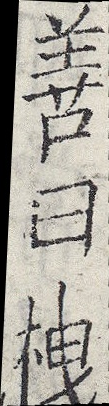善曰栧
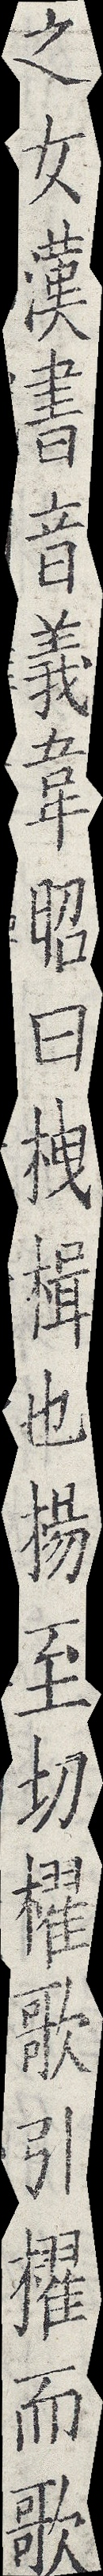之女漢書音義韋昭曰栧楫也楊至切櫂歌引櫂而歌
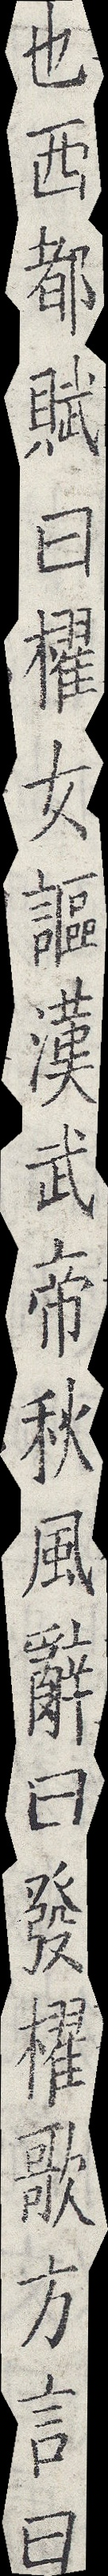也西都賦曰櫂女謳漢武帝秋風辭曰發櫂歌方言曰
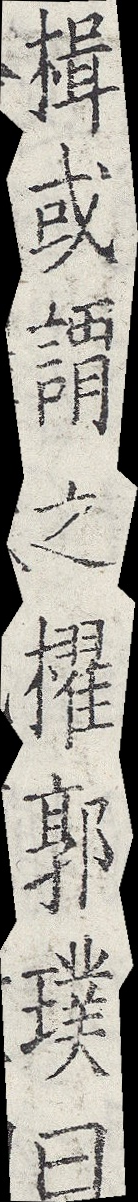楫或謂之櫂郭璞曰
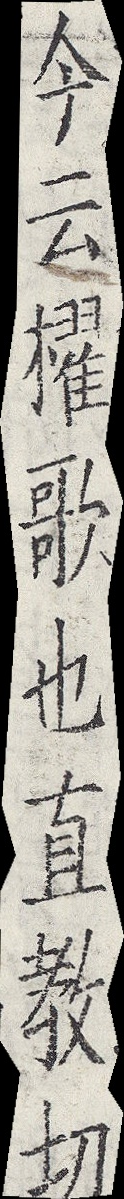今云櫂歌也直教切
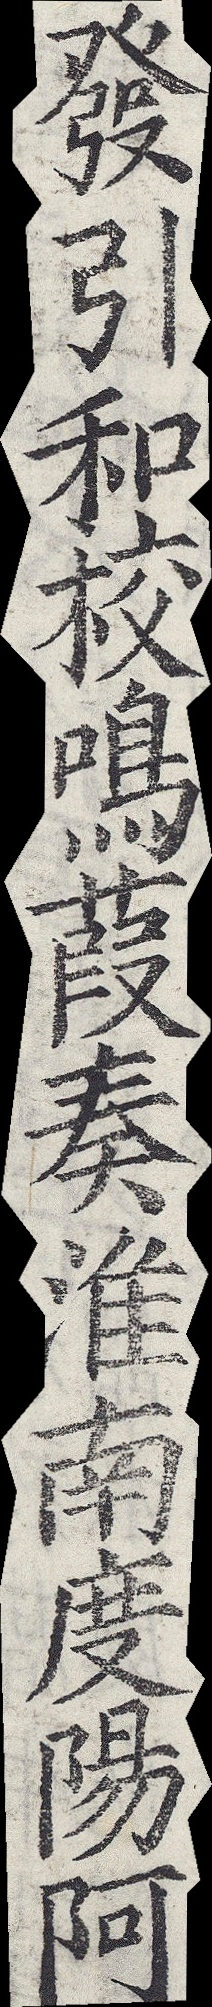發引和校鳴葭奏淮南度陽阿
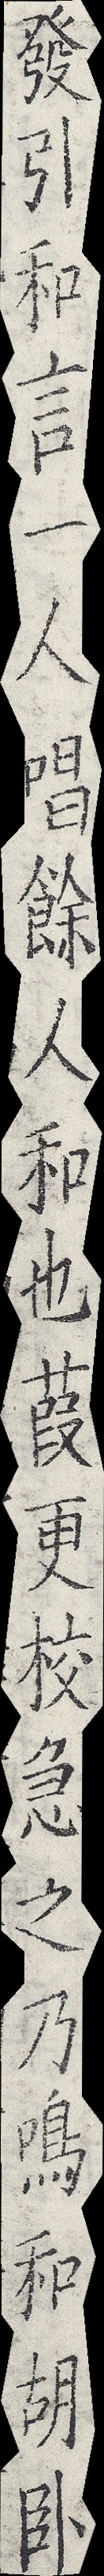發引和言一人唱餘人和也葭更校急之乃鳴和胡臥
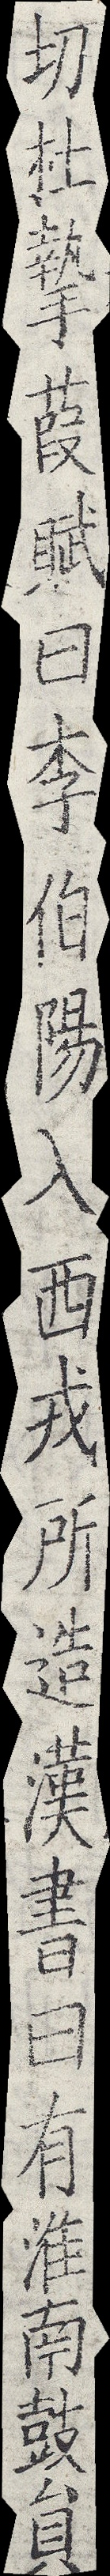切杜摯葭賦曰李伯陽入西戎所造漢書曰有淮南鼓員
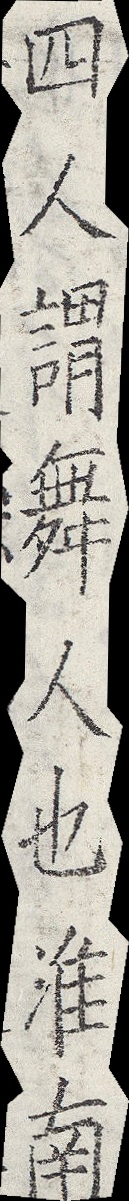四人謂舞人也淮南
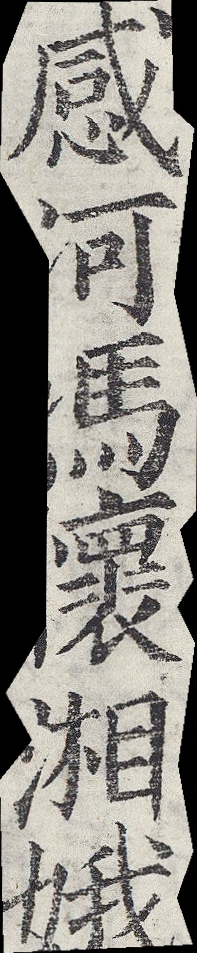感河馮懷湘娥
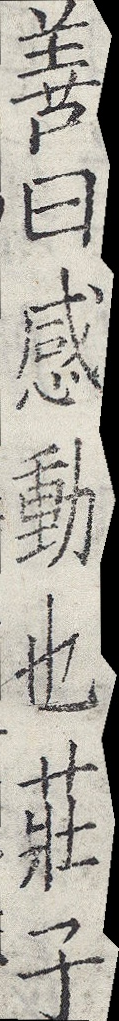善曰感動也莊子
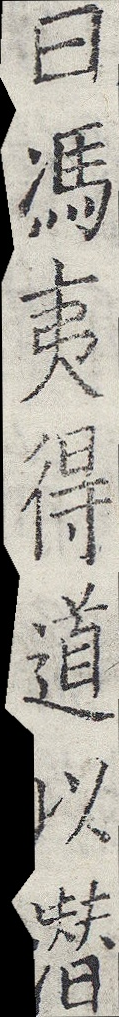曰馮夷得道以潛
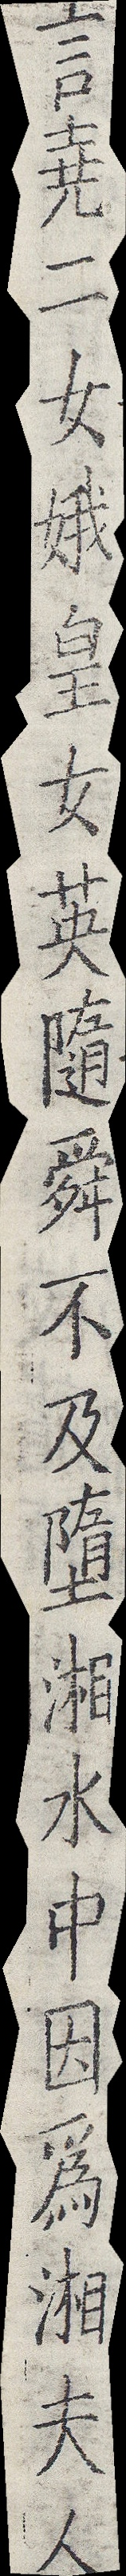言堯二女娥皇女英隨舜不及墮湘水中因為湘夫人
